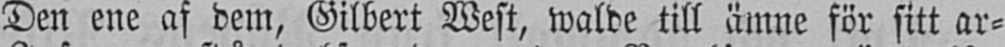Den ene af dem, Gilbert West, walde till ämne för sitt ar-
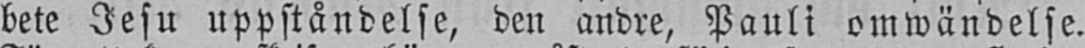bete Jesu uppståndelse, den andre, Pauli omwändelse.
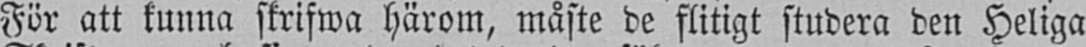För att kunna skrifwa härom, måste de flitigt studera den Heliga
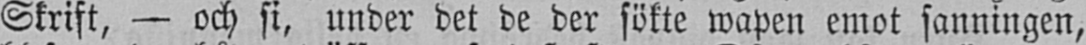Skrift, — och si, under det de der sökte wapen emot sanningen,
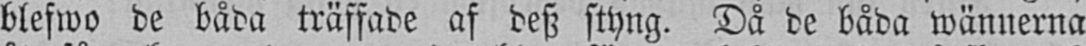blefwo de båda träffade af desz styng. Då de båda wännerna
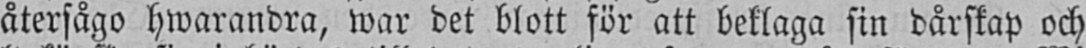återsågo hwarandra, war det blott för att beklaga sin dårskap och
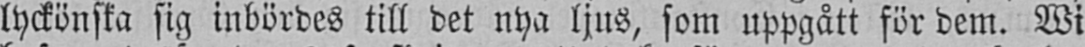lyckönska sig inbördes till det nya ljus, som uppgått för dem. Wi
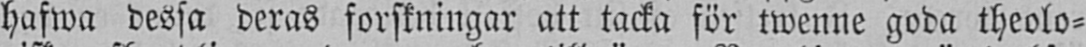hafwa dessa deras forskningar att tacka för twenne goda theolo-
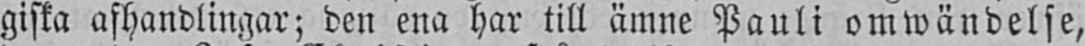giska afhandlingar; den ena har till ämne Pauli omwändelse,
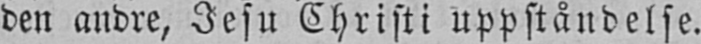den andre, Jesu Christi uppståndelse.
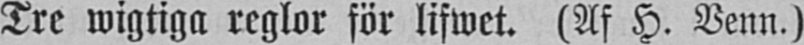Tre wigtiga reglor för lifwet. (Af H. Venn.)
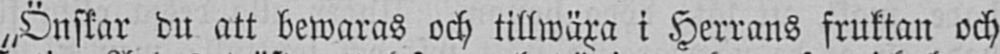„Önskar du att bewaras och tillwäxa i Herrans fruktan och
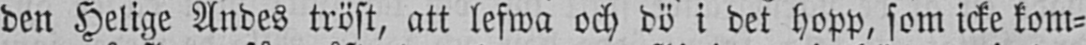den Helige Andes tröst, att lefwa och dö i det hopp, som icke kom-
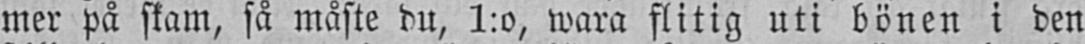mer på skam, så måste du, 1:o, wara flitig uti bönen i den
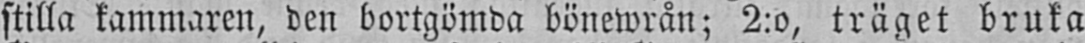stilla kammaren, den bortgömda bönewrån; 2:o, träget bruka
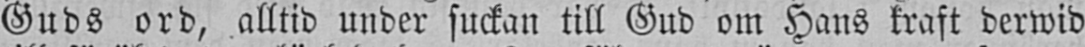Guds ord, alltid under suckan till Gud om Hans kraft derwid
